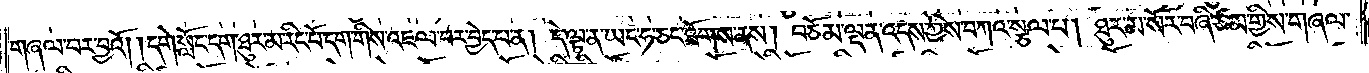གཞལ་བར་བྱའོ། །དགེ་སློང་དག་ཐུར་མ་རིང་པོ་དག་གིས་འཇལ་བར་བྱེད་པ་ན། དེ་ལྟ་ན་ཡང་ཧ་ཅང་ཐོགས་ནས། བཅོམ་ལྡན་འདས་ཀྱིས་བཀའ་སྩལ་པ། ཐུར་མ་སོར་བཞི་ཙམ་གྱིས་གཞལ་
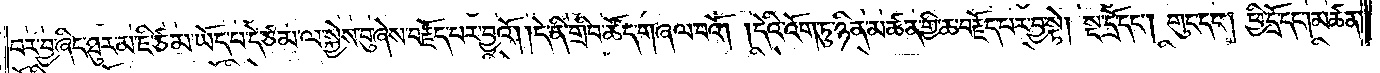བར་བྱ་ཞིང་ཐུར་མ་ཇི་ཙམ་ཡོད་པ་དེ་ཙམ་ལ་སྐྱེས་བུ་ཞེས་བརྗོད་པར་བྱའོ། །དེ་ནི་གྲིབ་ཚོད་གཞལ་བའོ། །དེའི་འོག་ཏུ་ཉིན་མཚན་གྱི་ཆ་བརྗོད་པར་བྱ་སྟེ། སྔ་དྲོ་དང༌། གུང་དང༌། ཕྱི་དྲོ་དང༌།མཚན་
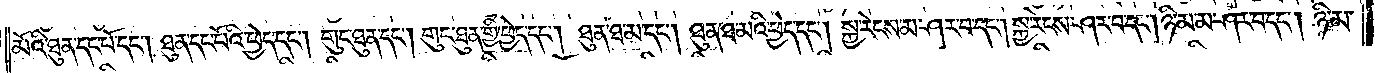མོའི་ཐུན་དང་པོ་དང༌། ཐུན་དང་པོའི་ཕྱེད་དང༌། གུང་ཐུན་དང༌། གུང་ཐུན་གྱི་ཕྱེད་དང༌། ཐུན་ཐ་མ་དང༌། ཐུན་ཐ་མའི་ཕྱེད་དང༌། སྐྱ་རེངས་མ་ཤར་བ་དང༌། སྐྱ་རེངས་ཤར་བ་དང༌། ཉི་མ་མ་ཤར་བ་དང༌། ཉི་མ་
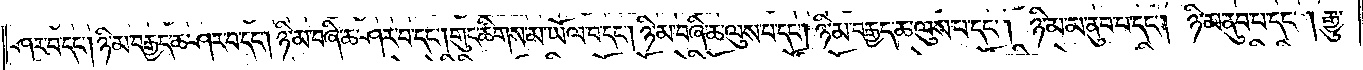ཤར་བ་དང༌། ཉི་མ་བརྒྱད་ཆ་ཤར་བ་དང༌། ཉི་མ་བཞི་ཆ་ཤར་བ་དང༌། གུང་ཚིགས་མ་ཡོལ་བ་དང༌། ཉི་མ་བཞི་ཆ་ལུས་པ་དང༌། ཉི་མ་བརྒྱད་ཆ་ལུས་པ་དང༌། ཉི་མ་མ་ནུབ་པ་དང༌། ཉི་མ་ནུབ་པ་དང༌། རྒྱུ་
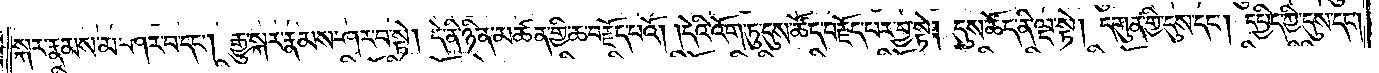སྐར་རྣམས་མ་ཤར་བ་དང༌། རྒྱུ་སྐར་རྣམས་ཤར་བ་སྟེ། དེ་ནི་ཉིན་མཚན་གྱི་ཆ་བརྗོད་པའོ། །དེའི་འོག་ཏུ་དུས་ཚོད་བརྗོད་པར་བྱ་སྟེ། དུས་ཚོད་ནི་ལྔ་སྟེ། དགུན་གྱི་དུས་དང༌། དཔྱིད་ཀྱི་དུས་དང༌།
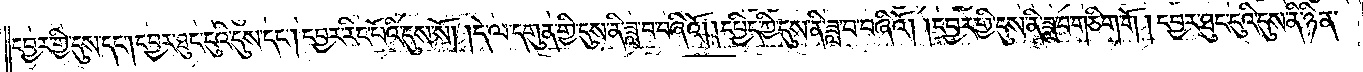དབྱར་གྱི་དུས་དང༌། དབྱར་ཐུང་ངུའི་དུས་དང༌། དབྱར་རིང་པོའི་དུས་སོ། །དེ་ལ་དགུན་གྱི་དུས་ནི་ཟླ་བ་བཞིའོ། །དཔྱིད་ཀྱི་དུས་ནི་ཟླ་བ་བཞིའོ། །དབྱར་གྱི་དུས་ནི་ཟླ་བ་གཅིག་གོ །དབྱར་ཐུང་ངུའི་དུས་ནི་ཉིན་
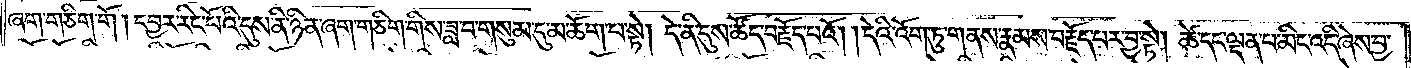ཞག་གཅིག་གོ །དབྱར་རིང་པོའི་དུས་ནི་ཉིན་ཞག་གཅིག་གིས་ཟླ་བ་གསུམ་དུ་མ་ཆོག་པ་སྟེ། དེ་ནི་དུས་ཚོད་བརྗོད་པའོ། །དེའི་འོག་ཏུ་གནས་རྣམས་བརྗོད་པར་བྱ་སྟེ། ཚེ་དང་ལྡན་པ་མིང་འདི་ཞེས་བྱ་
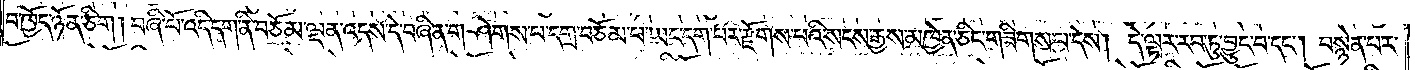བ་ཁྱོད་ཉོན་ཅིག །བཞི་པོ་འདི་དག་ནི་བཅོམ་ལྡན་འདས་དེ་བཞིན་གཤེགས་པ་དགྲ་བཅོམ་པ་ཡང་དག་པར་རྫོགས་པའི་སངས་རྒྱས་མཁྱེན་ཅིང་གཟིགས་པ་དེས། དེ་ལྟར་རབ་ཏུ་བྱུང་བ་དང༌། བསྙེན་པར་
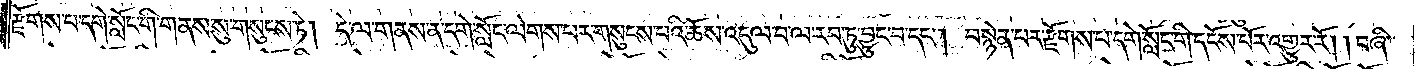རྫོགས་པ་དགེ་སློང་གི་གནས་སུ་གསུངས་ཏེ། དེ་ལ་གནས་ན་དགེ་སློང་ལེགས་པར་གསུངས་པའི་ཆོས་འདུལ་བ་ལ་རབ་ཏུ་བྱུང་བ་དང༌། བསྙེན་པར་རྫོགས་པ་དགེ་སློང་གི་དངོས་པོར་འགྱུར་རོ། །བཞི་
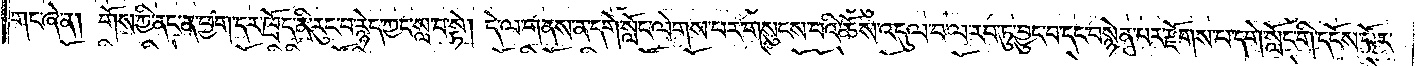གང་ཞེ་ན། གོས་ཀྱི་ནང་ན་ཕྱག་དར་ཁྲོད་ནི་རུང་བ་རྙེད་ཀྱང་སླ་བ་སྟེ། དེ་ལ་གནས་ན་དགེ་སློང་ལེགས་པར་གསུངས་པའི་ཆོས་འདུལ་བ་ལ་རབ་ཏུ་བྱུང་བ་དང་བསྙེན་པར་རྫོགས་པ་དགེ་སློང་གི་དངོས་པོར་
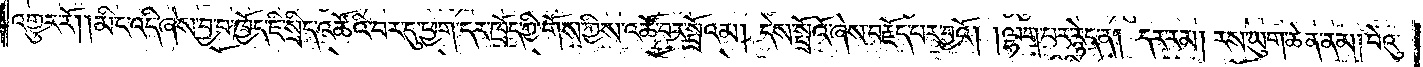འགྱུར་རོ། །མིང་འདི་ཞེས་བྱ་བ་ཁྱོད་ཇི་སྲིད་འཚོའི་བར་དུ་ཕྱག་དར་ཁྲོད་ཀྱི་གོས་ཀྱིས་འཚོ་བར་སྤྲོའམ། དེས་སྤྲོའོ་ཞེས་བརྗོད་པར་བྱའོ། །ལྷག་པར་རྙེད་ན། དར་རམ། རས་ཡུག་ཆེན་ནམ། བེའུ་
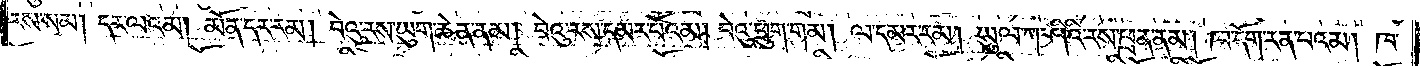རས་སམ། དར་ལའམ། མོན་དར་རམ། བེའུ་རས་ཡུག་ཆེན་ནམ། བེའུ་རས་དམར་པོའམ། བེའུ་ཕྲུག་གམ། ལ་དམར་རམ། ཡུལ་ཀ་ཤིའི་རས་ཕྲན་ནམ། ཁ་དོག་རན་པའམ། ཁ་
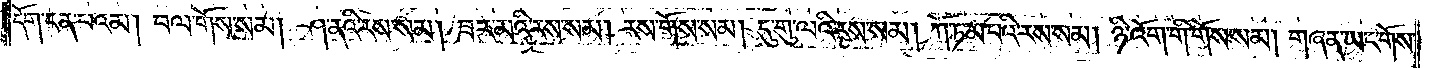དོག་ངན་པའམ། བལ་གོས་སམ། ཤ་ནའི་རས་སམ། ཟར་མའི་རས་སམ། རས་གོས་སམ། དུ་གུ་ལའི་རས་སམ། ཀོ་ཏ་མ་པའི་རས་སམ། ཉི་འོག་གི་གོས་སམ། གཞན་ཡང་གོས་
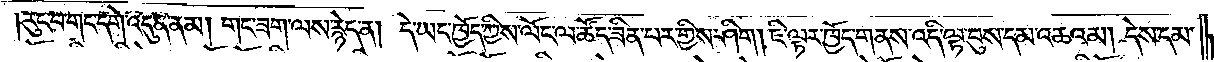།རུང་བ་གང་དགེ་འདུན་ནམ། གང་ཟག་ལས་རྙེད་ན། དེ་ཡང་ཁྱོད་ཀྱིས་ལོང་ལ་ཚོད་ཟིན་པར་གྱིས་ཤིག། ཇི་ལྟར་ཁྱོད་གནས་འདི་ལྟ་བུས་དམ་འཆའམ། དེས་དམ་
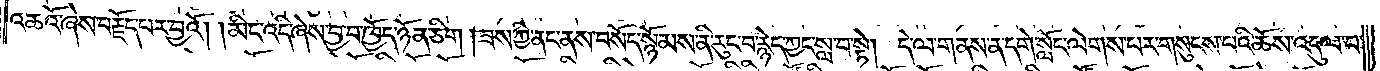འཆའོ་ཞེས་བརྗོད་པར་བྱའོ། །མིང་འདི་ཞེས་བྱ་བ་ཁྱོད་ཉོན་ཅིག །ཟས་ཀྱི་ནང་ནས་བསོད་སྙོམས་ནི་རུང་བ་རྙེད་ཀྱང་སླ་བ་སྟེ། དེ་ལ་གནས་ན་དགེ་སློང་ལེགས་པར་གསུངས་པའི་ཆོས་འདུལ་བ་
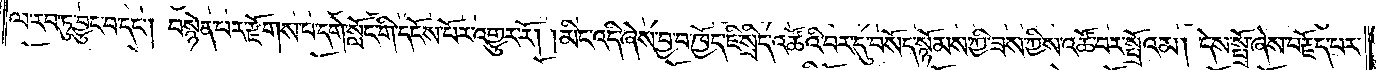ལ་རབ་ཏུ་བྱུང་བ་དང༌། བསྙེན་པར་རྫོགས་པ་དགེ་སློང་གི་དངོས་པོར་འགྱུར་རོ། །མིང་འདི་ཞེས་བྱ་བ་ཁྱོད་ཇི་སྲིད་འཚོའི་བར་དུ་བསོད་སྙོམས་ཀྱི་ཟས་ཀྱིས་འཚོ་བར་སྤྲོའམ། དེས་སྤྲོ་ཞེས་བརྗོད་པར་
